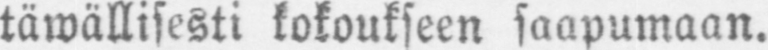täwällisesti kokoukseen saapumaan.
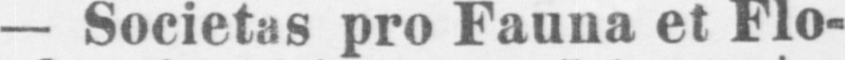— Societas pro Fauna et Flo-
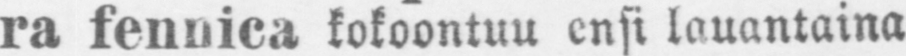ra fennica kokoontuu ensi lauantaina
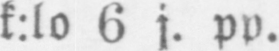k:lo 6 j. pp.
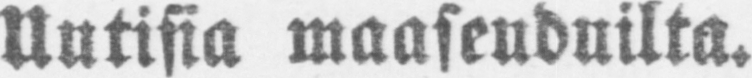Uutisia maaseuduilta.
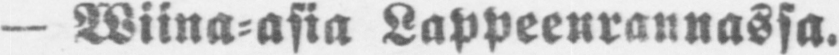— Wiina-asia Lappeenrannassa.
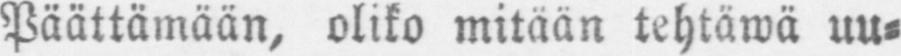Päättämään, oliko mitään tehtäwä uu-
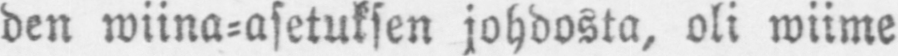den wiina-asetuksen johdosta, oli wiime
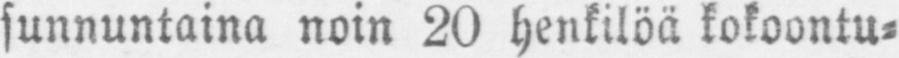sunnuntaina noin 20 henkilöä kokoontu-
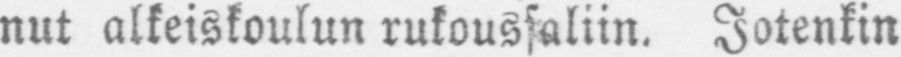nut alkeiskoulun rukoussaliin. Jotenkin
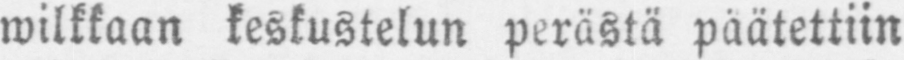wilkkaan keskustelun perästä päätettiin
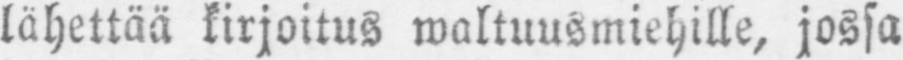lähettää kirjoitus waltuusmiehille, jossa
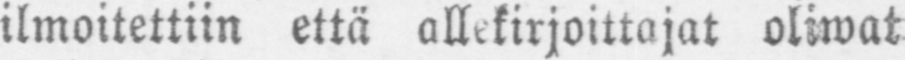ilmoitettiin että allekirjoittajat oliwat
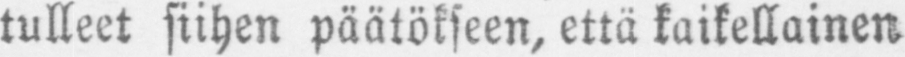tulleet siihen päätökseen, että kaikellainen
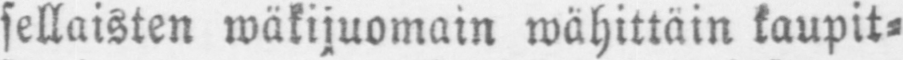sellaisten wäkijuomain wähittäin kaupit-
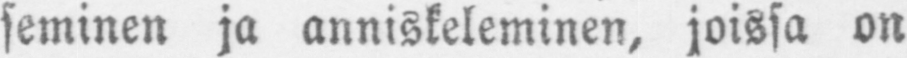seminen ja anniskeleminen, joissa on
